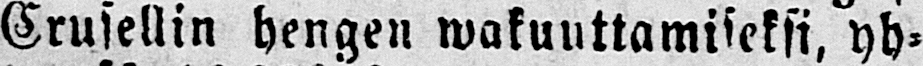Crusellin hengen wakuuttamiseksi, yh-
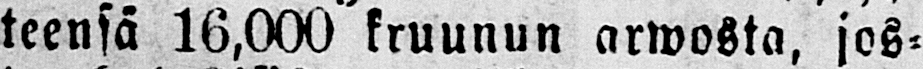teensä 16,000 kruunun arwosta, jos-
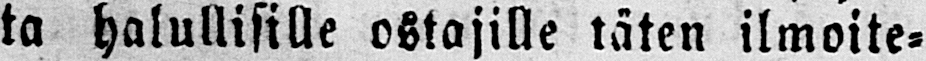ta halullisille ostajille täten ilmoite-
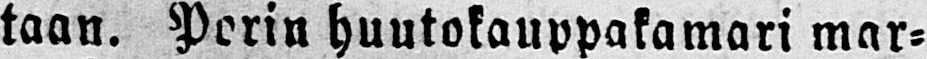taan. Porin huutokauppakamari mar-
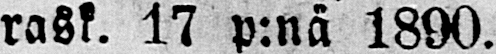rask. 17 p:nä 1890.
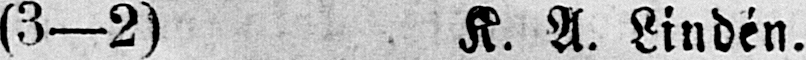(3—2) K. A. Lindén.
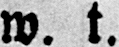w. t.
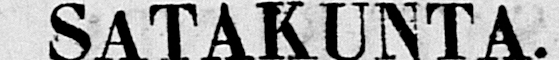SATAKUNTA.
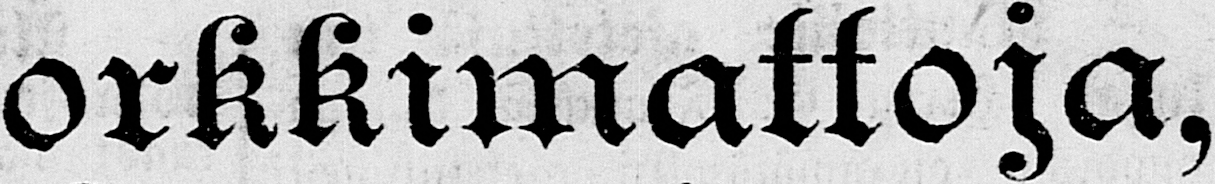Korkkimattoja,
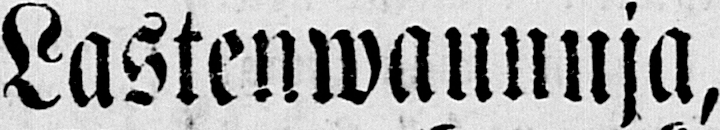Lastenwaunuja,
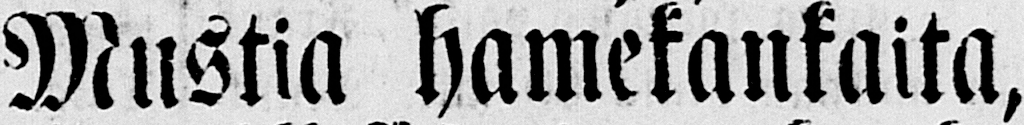Mustia hamekankaita,
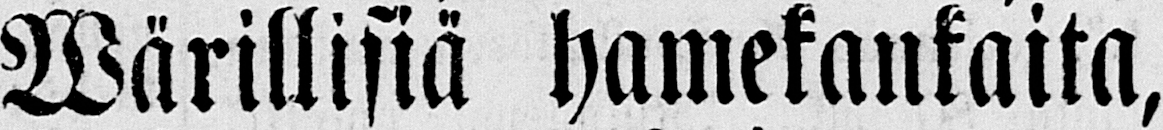Wärillisiä hamekankaita,
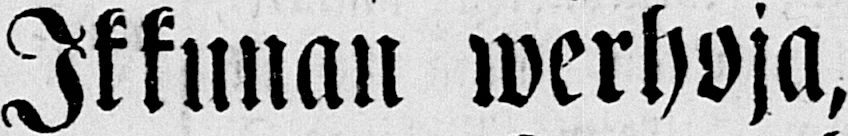Ikkunan werhoja,
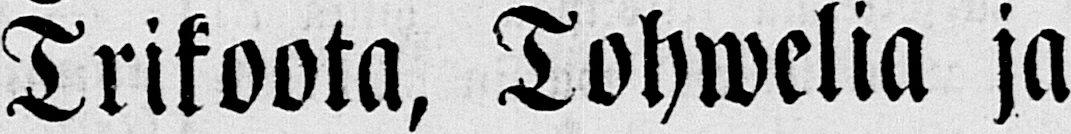Trikoota, Tohwelia ja
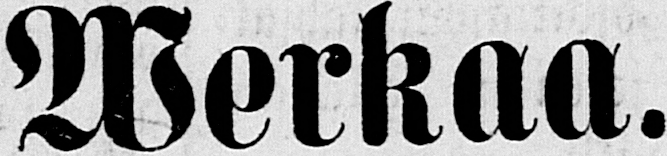Werkaa.
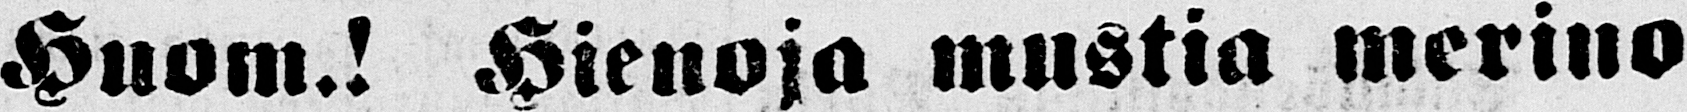Huom.! Hienoja mustia merino
